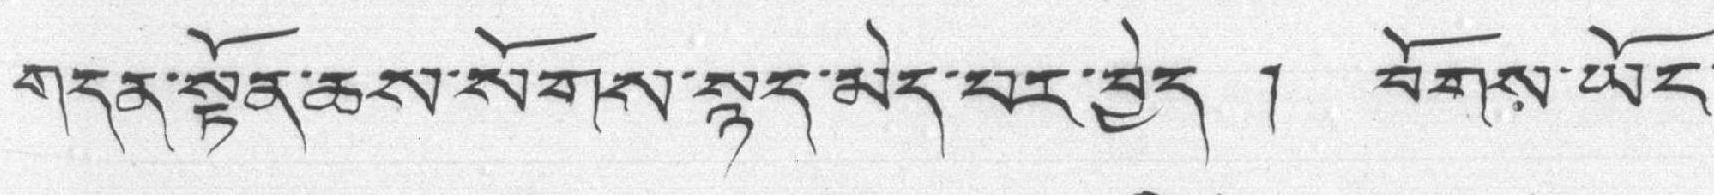གདན་སྟོན་ཆས་སོགས་སྙད་མེད་པར་བྱེད ། བོགས་ཡོང་
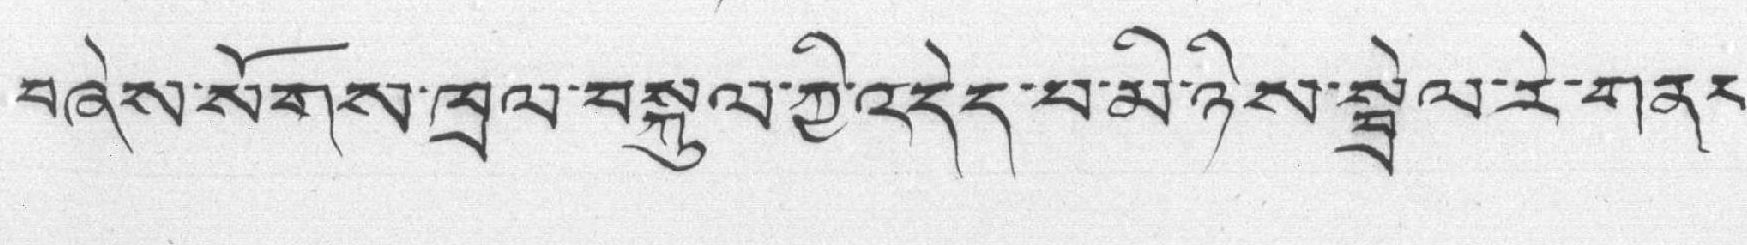བཞེས་སོགས་ཁྲལ་བསྐུལ་ཀྱི་འདེད་པ་མི་ཉིས་སྦྲེལ་རེ་གནང་
